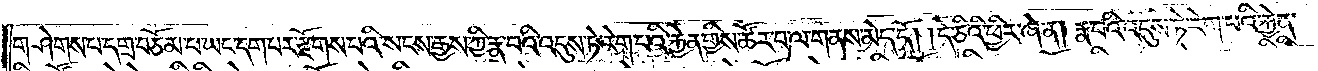གཤེགས་པ་དགྲ་བཅོམ་པ་ཡང་དག་པར་རྫོགས་པའི་སངས་རྒྱས་ཀྱི་རྣ་བའི་འདུས་ཏེ་རེག་པའི་རྐྱེན་གྱིས་ཚོར་བ་ལ་གནས་མེད་དོ། །དེ་ཅིའི་ཕྱིར་ཞེ་ན། རྣ་བའི་འདུས་ཏེ་རེག་པའི་རྐྱེན་
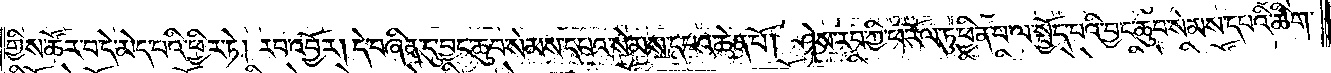གྱིས་ཚོར་བ་དེ་མེད་པའི་ཕྱིར་ཏེ། རབ་འབྱོར། དེ་བཞིན་དུ་བྱང་ཆུབ་སེམས་དཔའ་སེམས་དཔའ་ཆེན་པོ། ཤེས་རབ་ཀྱི་ཕ་རོལ་ཏུ་ཕྱིན་པ་ལ་སྤྱོད་པའི་བྱང་ཆུབ་སེམས་དཔའི་ཚིག་
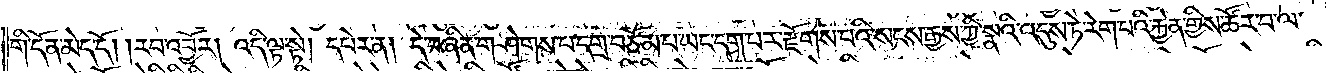གི་དོན་མེད་དོ། །རབ་འབྱོར། འདི་ལྟ་སྟེ། དཔེར་ན། དེ་བཞིན་གཤེགས་པ་དགྲ་བཅོམ་པ་ཡང་དག་པར་རྫོགས་པའི་སངས་རྒྱས་ཀྱི་སྣའི་འདུས་ཏེ་རེག་བའི་རྐྱེན་གྱིས་ཚོར་བ་ལ་
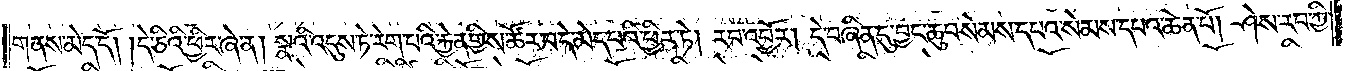གནས་མེད་དོ། །དེ་ཅིའི་ཕྱིར་ཞེ་ན། སྣའི་འདུས་ཏེ་རེག་པའི་རྐྱེན་གྱིས་ཚོར་བ་དེ་མེད་པའི་ཕྱིར་ཏེ། རབ་འབྱོར། དེ་བཞིན་དུ་བྱང་ཆུབ་སེམས་དཔའ་སེམས་དཔའ་ཆེན་པོ། ཤེས་རབ་ཀྱི་
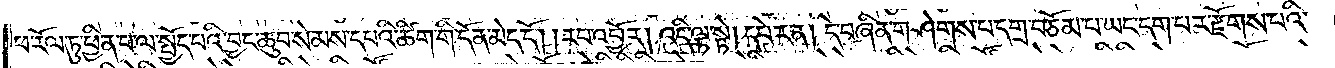ཕ་རོལ་ཏུ་ཕྱིན་པ་ལ་སྤྱོད་པའི་བྱང་ཆུབ་སེམས་དཔའི་ཚིག་གི་དོན་མེད་དོ། །རབ་འབྱོར། འདི་ལྟ་སྟེ། དཔེར་ན། དེ་བཞིན་གཤེགས་པ་དགྲ་བཅོམ་པ་ཡང་དག་པར་རྫོགས་པའི་
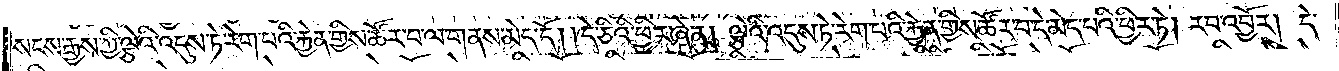སངས་རྒྱས་ཀྱི་ལྕེའི་འདུས་ཏེ་རེག་པའི་རྐྱེན་གྱིས་ཚོར་བ་ལ་གནས་མེད་དོ། །དེ་ཅིའི་ཕྱིར་ཞེ་ན། ལྕེའི་འདུས་ཏེ་རེག་པའི་རྐྱེན་གྱིས་ཚོར་བ་དེ་མེད་པའི་ཕྱིར་ཏེ། རབ་འབྱོར། དེ་
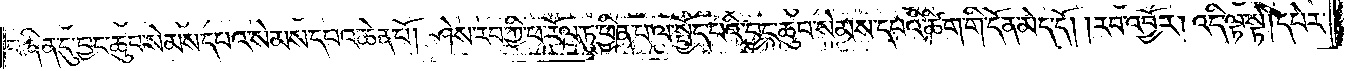བཞིན་དུ་བྱང་ཆུབ་སེམས་དཔའ་སེམས་དཔའ་ཆེན་པོ། ཤེས་རབ་ཀྱི་ཕ་རོལ་ཏུ་ཕྱིན་པ་ལ་སྤྱོད་པའི་བྱང་ཆུབ་སེམས་དཔའི་ཚིག་གི་དོན་མེད་དོ། །རབ་འབྱོར། འདི་ལྟ་སྟེ། དཔེར་
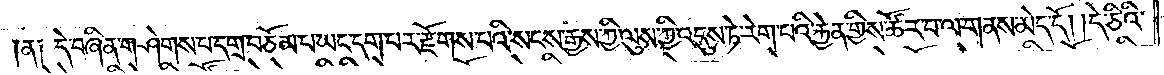ན། དེ་བཞིན་གཤེགས་པ་དགྲ་བཅོམ་པ་ཡང་དག་པར་རྫོགས་པའི་སངས་རྒྱས་ཀྱི་ལུས་ཀྱི་འདུས་ཏེ་རེག་པའི་རྐྱེན་གྱིས་ཚོར་བ་ལ་གནས་མེད་དོ། །དེ་ཅིའི་
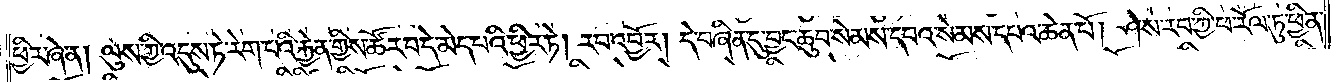ཕྱིར་ཞེ་ན། ལུས་ཀྱི་འདུས་ཏེ་རེག་པའི་རྐྱེན་གྱིས་ཚོར་བ་དེ་མེད་པའི་ཕྱིར་ཏེ། རབ་འབྱོར། དེ་བཞིན་དུ་བྱང་ཆུབ་སེམས་དཔའ་སེམས་དཔའ་ཆེན་པོ། ཤེས་རབ་ཀྱི་ཕ་རོལ་ཏུ་ཕྱིན་
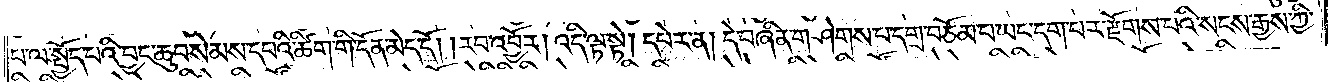པ་ལ་སྤྱོད་པའི་བྱང་ཆུབ་སེམས་དཔའི་ཚིག་གི་དོན་མེད་དོ། །རབ་འབྱོར། འདི་ལྟ་སྟེ། དཔེར་ན། དེ་བཞིན་གཤེགས་པ་དགྲ་བཅོམ་པ་ཡང་དག་པར་རྫོགས་པའི་སངས་རྒྱས་ཀྱི་
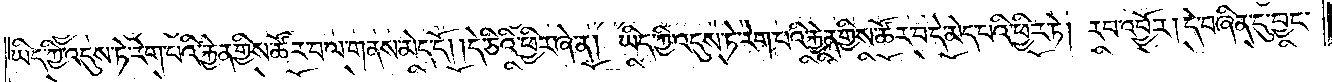ཡིད་ཀྱི་འདུས་ཏེ་རེག་པའི་རྐྱེན་གྱིས་ཚོར་བ་ལ་གནས་མེད་དོ། །དེ་ཅིའི་ཕྱིར་ཞེ་ན། ཡིད་ཀྱི་འདུས་ཏེ་རེག་པའི་རྐྱེན་གྱིས་ཚོར་བ་དེ་མེད་པའི་ཕྱིར་ཏེ། རབ་འབྱོར། དེ་བཞིན་དུ་བྱང་
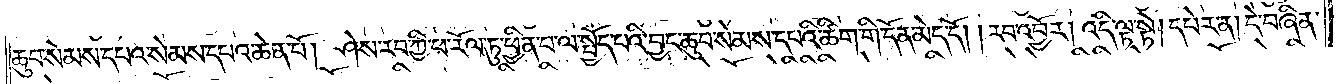ཆུབ་སེམས་དཔའ་སེམས་དཔའ་ཆེན་པོ། ཤེས་རབ་ཀྱི་ཕ་རོལ་ཏུ་ཕྱིན་པ་ལ་སྤྱོད་པའི་བྱང་ཆུབ་སེམས་དཔའི་ཚིག་གི་དོན་མེད་དོ། །རབ་འབྱོར། འདི་ལྟ་སྟེ། དཔེར་ན། དེ་བཞིན་
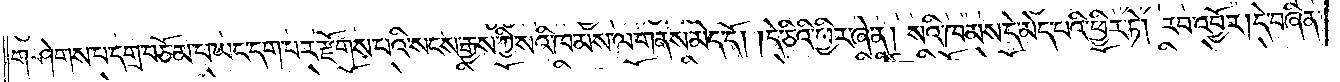གཤེགས་པ་དགྲ་བཅོམ་པ་ཡང་དག་པར་རྫོགས་པའི་སངས་རྒྱས་ཀྱི་སའི་ཁམས་ལ་གནས་མེད་དོ། །དེ་ཅིའི་ཕྱིར་ཞེ་ན། སའི་ཁམས་དེ་མེད་པའི་ཕྱིར་ཏེ། རབ་འབྱོར། དེ་བཞིན་
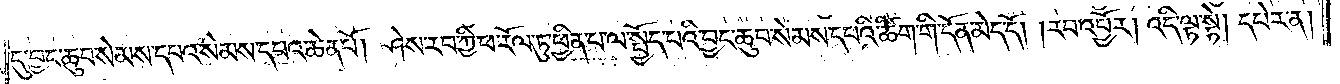དུ་བྱང་ཆུབ་སེམས་དཔའ་སེམས་དཔའ་ཆེན་པོ། ཤེས་རབ་ཀྱི་ཕ་རོལ་ཏུ་ཕྱིན་པ་ལ་སྤྱོད་པའི་བྱང་ཆུབ་སེམས་དཔའི་ཚིག་གི་དོན་མེད་དོ། །རབ་འབྱོར། འདི་ལྟ་སྟེ། དཔེར་ན།
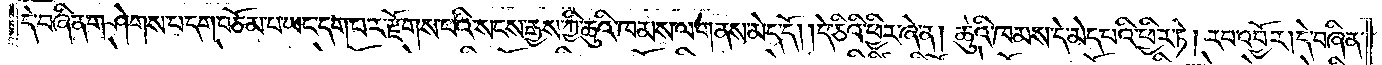དེ་བཞིན་གཤེགས་པ་དགྲ་བཅོམ་པ་ཡང་དག་པར་རྫོགས་པའི་སངས་རྒྱས་ཀྱི་ཆུའི་ཁམས་ལ་གནས་མེད་དོ། །དེ་ཅིའི་ཕྱིར་ཞེ་ན། ཆུའི་ཁམས་དེ་མེད་པའི་ཕྱིར་ཏེ། རབ་འབྱོར། དེ་བཞིན་
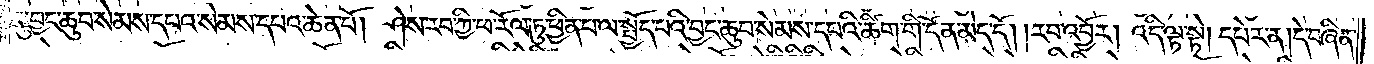དུ་བྱང་ཆུབ་སེམས་དཔའ་སེམས་དཔའ་ཆེན་པོ། ཤེས་རབ་ཀྱི་ཕ་རོལ་ཏུ་ཕྱིན་པ་ལ་སྤྱོད་པའི་བྱང་ཆུབ་སེམས་དཔའི་ཚིག་གི་དོན་མེད་དོ། །རབ་འབྱོར། འདི་ལྟ་སྟེ། དཔེར་ན། དེ་བཞིན་
